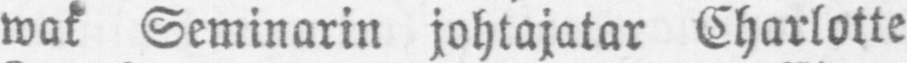wat Seminarin johtajatar Charlotte
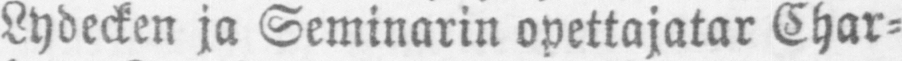Lydecken ja Seminarin opettajatar Char-
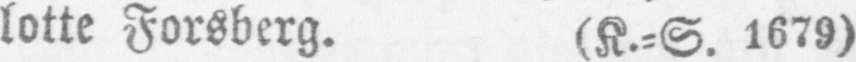lotte Forsberg. (K.-S. 1679)
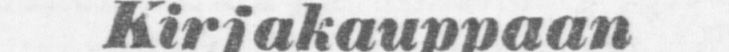Kirjakauppaan
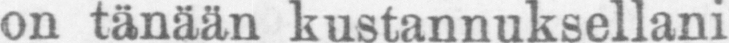on tänään kustannuksellani
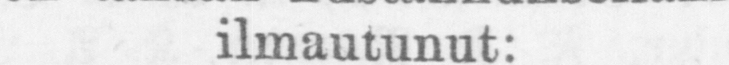ilmautunut:
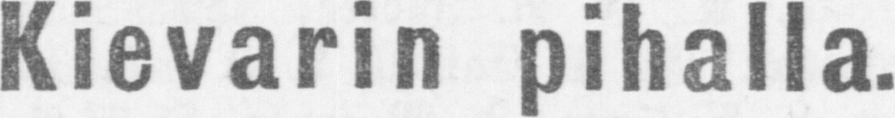Kievarin pihalla.
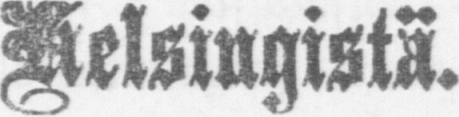Helsingistä.
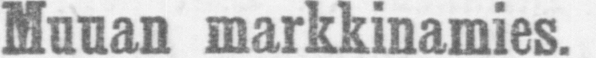Muuan markkinamies.
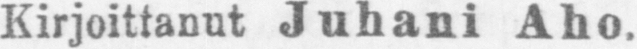Kirjoittanut Juhani Aho.
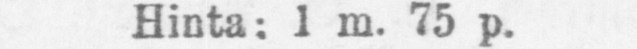Hinta: 1 m. 75 p.
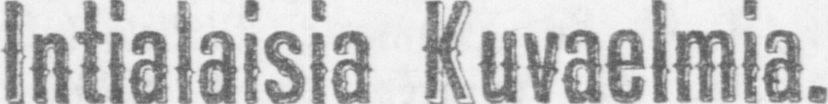Intialaisia Kuvaelmia.
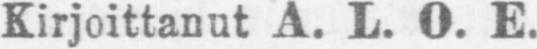Kirjoittanut A. L. O. E.
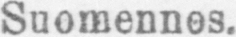Suomennos.
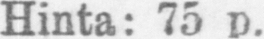Hinta: 75 p.
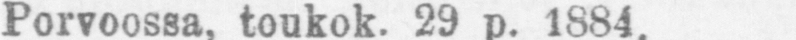Porvoosa, toukok. 29 p. 1884.
